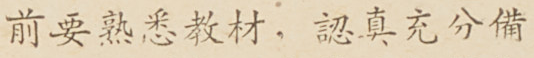前要熟悉教材，認真充分備
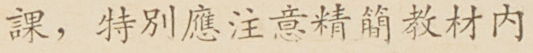課，特別應注意精簡教材內
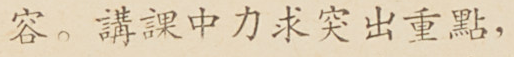容。講課中力求突出重點，
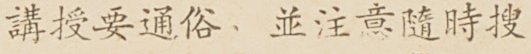講授要通俗，並注意隨時搜
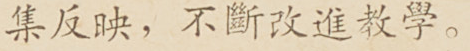集反映，不斷改進教學。
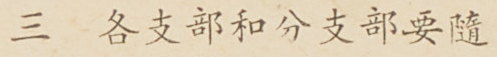三、各支部和分支部要隨
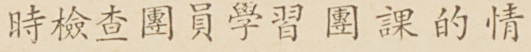時檢查團員學習團課的情
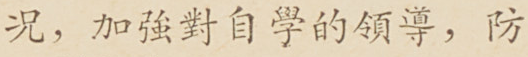況，加強對自學的領導，防
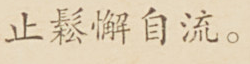止鬆懈自流。
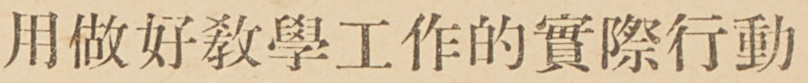用做好敎學工作的實際行動
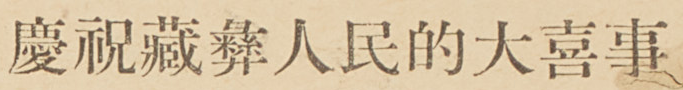慶祝藏彝人民的大喜事
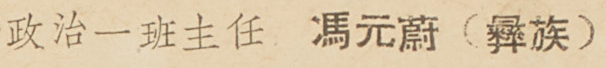政治一班主任 馮元蔚（彝族）
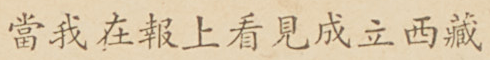當我在報上看見成立西藏
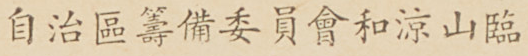自治區籌備委員會和涼山臨
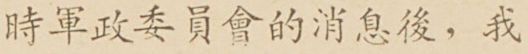時軍政委員會的消息後，我
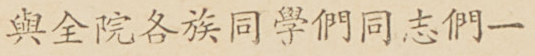與全院各族同學們同志們一
